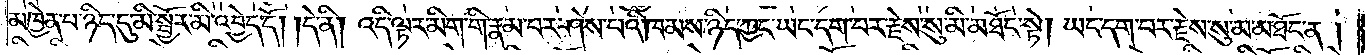མཁྱེན་པ་ཉིད་དུ་མི་སྦྱོར་མི་འབྱེད་དོ། །དེ་ནི། འདི་ལྟར་མིག་གི་རྣམ་པར་ཤེས་པའི་ཁམས་ཉིད་ཀྱང་ཡང་དག་པར་རྗེས་སུ་མི་མཐོང་སྟེ། ཡང་དག་པར་རྗེས་སུ་མ་མཐོང་ན་།
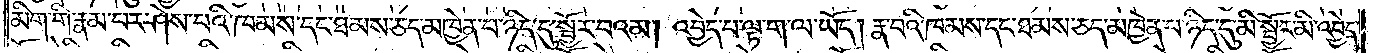མིག་གི་རྣམ་པར་ཤེས་པའི་ཁམས་དང་ཐམས་ཅད་མཁྱེན་པ་ཉིད་དུ་སྦྱོར་བའམ། འབྱེད་པ་ལྟ་ག་ལ་ཡོད། རྣ་བའི་ཁམས་དང་ཐམས་ཅད་མཁྱེན་པ་ཉིད་དུ་མི་སྦྱོར་མི་འབྱེད་
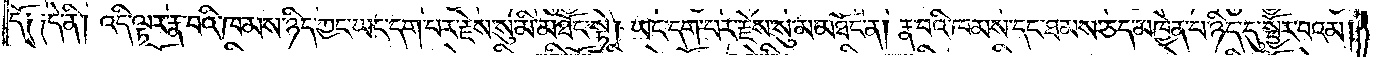དོ༑ ༑དེ་ནི། འདི་ལྟར་རྣ་བའི་ཁམས་ཉིད་ཀྱང་ཡང་དག་པར་རྗེས་སུ་མི་མཐོང་སྟེ། ཡང་དག་པར་རྗེས་སུ་མ་མཐོང་ན། རྣ་བའི་ཁམས་དང་ཐམས་ཅད་མཁྱེན་པ་ཉིད་དུ་སྦྱོར་བའམ།
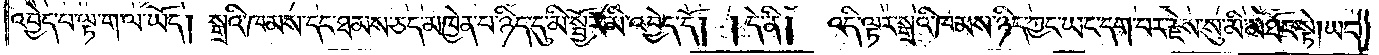འབྱེད་པ་ལྟ་ག་ལ་ཡོད། སྒྲའི་ཁམས་དང་ཐམས་ཅད་མཁྱེན་པ་ཉིད་དུ་མི་སྦྱོར་མི་འབྱེད་དོ། །དེ་ནི། འདི་ལྟར་སྒྲའི་ཁམས་ཉིད་ཀྱང་ཡང་དག་པར་རྗེས་སུ་མི་མཐོང་སྟེ། ཡང་
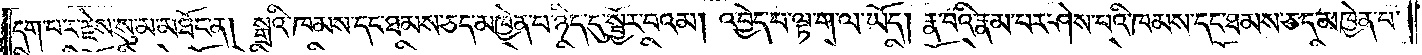དག་པར་རྗེས་སུ་མ་མཐོང་ན། སྒྲའི་ཁམས་དང་ཐམས་ཅད་མཁྱེན་པ་ཉིད་དུ་སྦྱོར་བའམ། འབྱེད་པ་ལྟ་ག་ལ་ཡོད། རྣ་བའི་རྣམ་པར་ཤེས་པའི་ཁམས་དང་ཐམས་ཅད་མཁྱེན་པ་
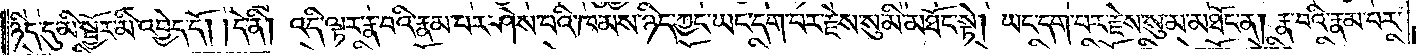ཉིད་དུ་མི་སྦྱོར་མི་འབྱེད་དོ། །དེ་ནི། འདི་ལྟར་རྣ་བའི་རྣམ་པར་ཤེས་པའི་ཁམས་ཉིད་ཀྱང་ཡང་དག་པར་རྗེས་སུ་མི་མཐོང་སྟེ། ཡང་དག་པར་རྗེས་སུ་མ་མཐོང་ན། རྣ་བའི་རྣམ་པར་
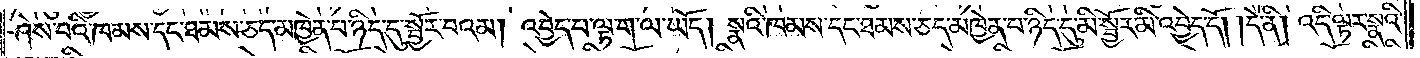ཤེས་པའི་ཁམས་དང་ཐམས་ཅད་མཁྱེན་པ་ཉིད་དུ་སྦྱོར་བའམ། འབྱེད་པ་ལྟ་ག་ལ་ཡོད། སྣའི་ཁམས་དང་ཐམས་ཅད་མཁྱེན་པ་ཉིད་དུ་མི་སྦྱོར་མི་འབྱེད་དོ། །དེ་ནི། འདི་ལྟར་སྣའི་
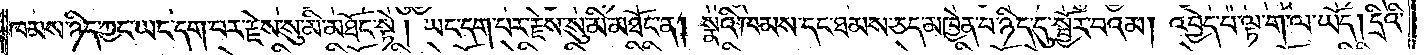ཁམས་ཉིད་ཀྱང་ཡང་དག་པར་རྗེས་སུ་མི་མཐོང་སྟེ། ཡང་དག་པར་རྗེས་སུ་མི་མཐོང་ན། སྣའི་ཁམས་དང་ཐམས་ཅད་མཁྱེན་པ་ཉིད་དུ་སྦྱོར་བའམ། འབྱེད་པ་ལྟ་ག་ལ་ཡོད། དྲིའི་
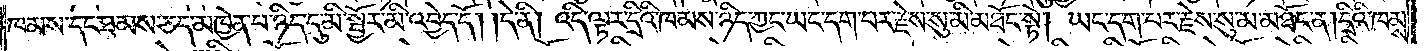ཁམས་དང་ཐམས་ཅད་མཁྱེན་པ་ཉིད་དུ་མི་སྦྱོར་མི་འབྱེད་དོ། །དེ་ནི། འདི་ལྟར་དྲིའི་ཁམས་ཉིད་ཀྱང་ཡང་དག་པར་རྗེས་སུ་མི་མཐོང་སྟེ། ཡང་དག་པར་རྗེས་སུ་མ་མཐོང་ན། དྲིའི་ཁམས་
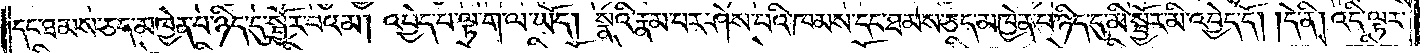དང་ཐམས་ཅད་མཁྱེན་པ་ཉིད་དུ་སྦྱོར་བའམ། འབྱེད་པ་ལྟ་ག་ལ་ཡོད། སྣའི་རྣམ་པར་ཤེས་པའི་ཁམས་དང་ཐམས་ཅད་མཁྱེན་པ་ཉིད་དུ་མི་སྦྱོར་མི་འབྱེད་དོ། །དེ་ནི། འདི་ལྟར་
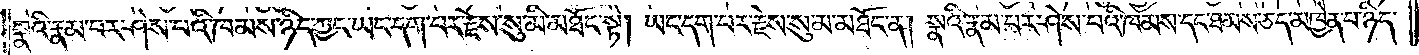སྣའི་རྣམ་པར་ཤེས་པའི་ཁམས་ཉིད་ཀྱང་ཡང་དག་པར་རྗེས་སུ་མི་མཐོང་སྟེ། ཡང་དག་པར་རྗེས་སུ་མ་མཐོང་ན། སྣའི་རྣམ་པར་ཤེས་པའི་ཁམས་དང་ཐམས་ཅད་མཁྱེན་པ་ཉིད་
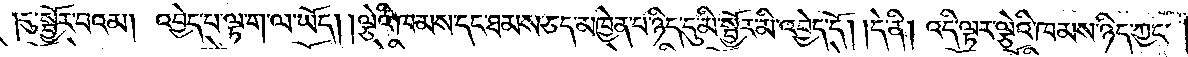དུ་སྤྱོར་བའམ། འབྱེད་པ་ལྟ་ག་ལ་ཡོད། །ལྕེའི་ཁམས་དང་ཐམས་ཅད་མཁྱེན་པ་ཉིད་དུ་མི་སྦྱོར་མི་འབྱེད་དོ། །དེ་ནི། འདི་ལྟར་ལྕེའི་ཁམས་ཉིད་ཀྱང་
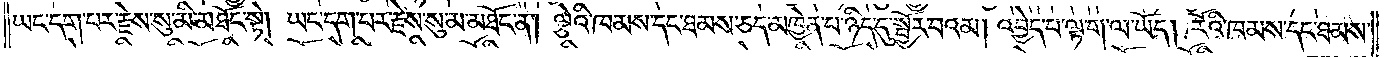ཡང་དག་པར་རྗེས་སུ་མི་མཐོང་སྟེ། ཡང་དག་པར་རྗེས་སུ་མ་མཐོང་ན། ལྕེའི་ཁམས་དང་ཐམས་ཅད་མཁྱེན་པ་ཉིད་དུ་སྦྱོར་བའམ། འབྱེད་པ་ལྟག་ལ་ཡོད། རོའི་ཁམས་དང་ཐམས་
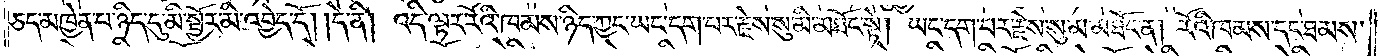ཅད་མཁྱེན་པ་ཉིད་དུ་མི་སྦྱོར་མི་འབྱེད་དོ། །དེ་ནི། འདི་ལྟར་རོའི་ཁམས་ཉིད་ཀྱང་ཡང་དག་པར་རྗེས་སུ་མི་མཐོང་སྟེ། ཡང་དག་པར་རྗེས་སུ་མ་མཐོང་ན། རོའི་ཁམས་དང་ཐམས་
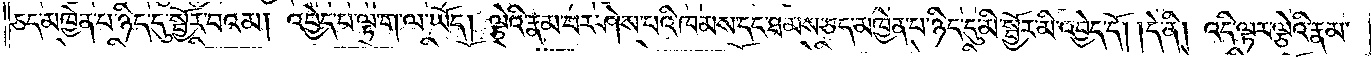ཅད་མཁྱེན་པ་ཉིད་དུ་སྦྱོར་བའམ། འབྱེད་པ་ལྟ་ག་ལ་ཡོད། ལྕེའི་རྣམ་པར་ཤེས་པའི་ཁམས་དང་ཐམས་ཅད་མཁྱེན་པ་ཉིད་དུ་མི་སྦྱོར་མི་འབྱེད་དོ། །དེ་ནི། འདི་ལྟར་ལྕེའི་རྣམ་
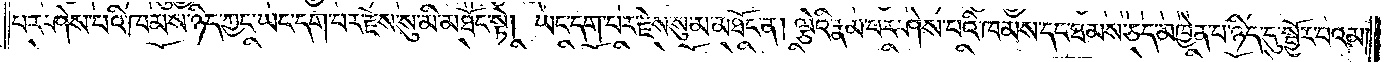པར་ཤེས་པའི་ཁམས་ཉིད་ཀྱང་ཡང་དག་པར་རྗེས་སུ་མི་མཐོང་སྟེ། ཡང་དག་པར་རྗེས་སུ་མ་མཐོང་ན། ལྕེའི་རྣམ་པར་ཤེས་པའི་ཁམས་དང་ཐམས་ཅད་མཁྱེན་པ་ཉིད་དུ་སྦྱོར་བའམ།
